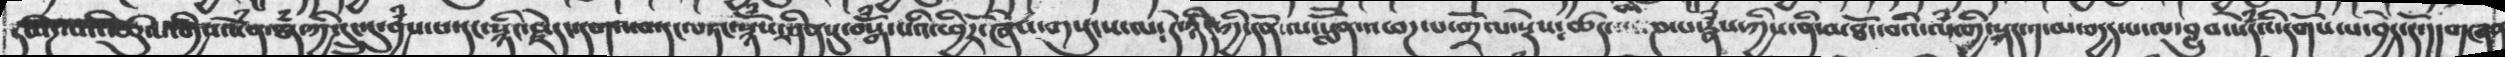དམིཌ་པའི་ཚུལ་གྱིས་སེཾན་རྣཾ་ཀྱི་དྲུང་དུ་བྱཾས་པ་དང་སྙིང་རྗེད་དགའ་བ་དང་བཏང་སྙོཾཔར་ཤིན་ཏུ་བསྒོཾ་པའི་ཕྱིར་ཞེས་གསུངས་ལ༴དེ་ཉིད་ཀྱི་དོན་ལ་སློོན་པཕཌ་པ་གྲོལ་སྡེས༴ཚད  ཎ་པ་རྣཾས་ཀྱིས་ནི་མཐོང་བའི་ལཾ་གྱི་སྐད་༡་མ་བདྱད་པ་ལ་བྱུབ་སེཾདའི་དགོས་པ་བྱེད་དོ་།།  གཞན
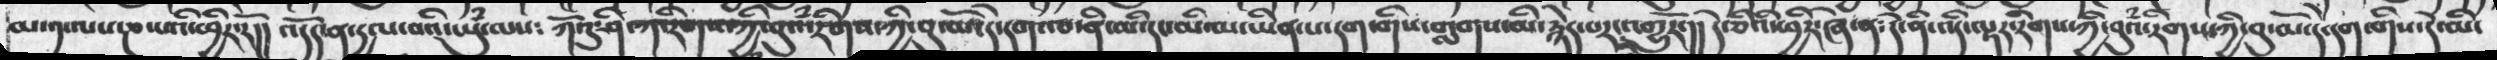མ་༡་ལས་ཎ་པའི་ཕྱིར་རོ།།  འདོད་ན་དྱལ་བའི་ཡུཾ་ལས༴  ཀོའུ་ཤི་ཀ་རིགས་ཀྱི་བུ་མོ་དེ་དག་ཁ་༡་ནི་མི་དང་མི་མ་ཡིན་པ་དག་གི་གླགས་མི་རྙེད་པར་འགྱུར་།།  དེ་ཅིའི་ཕྱིར་ཞེ་ན༴དེ་ནི་འདི་ལྟར་རིགས་ཀྱི་བུའཾ་རིགས་ཀྱི་བུ་མོ་དེ་དག་གིས་དེ་མི་
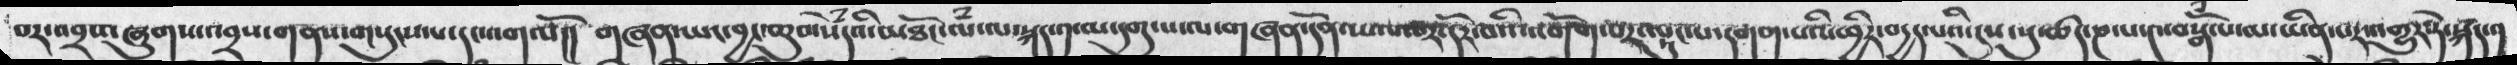བར་འགྲས་ཞུགས་འབྲས་གནས་གསུངས་པ་དང་འགལ།།  གཞན་ཡང་བྱང་ཆུབ་སེྃདའི་མཏོང་ལྃ་ལ་སྐད་༡་མ་དགུ་པ་ལ་གཞན་དོན་སལ་བར་དོར་པའི་བདོག་པར་ལྟུང་པ་དགག་པའི་ཕྱིར་བདྱད་པའི་དུས་སུ་ཚད་ཎ་པ་༤་བསྒོྃལ་མ་ཡིན་པར་འགྱུར་ཏེ་སྐད་༡
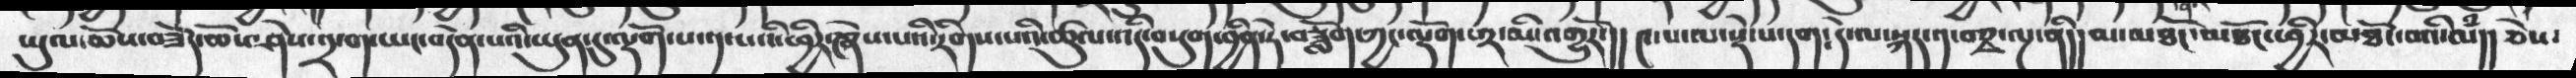ཡུལ་མོས་བཟོད་ཆེ་བཤེས་༢་ག་ཡང་བདེན་པའི་ཡུན་དུ་ལྡོག་པ་༡་པའི་ཕྱིར་ཞེས་པའི་རིགས་པའི་ཚུལ་འདི་བསུག་བྱིན་ཏེ་བཟློག་ཀྱང་ལྡོག་༢་མི་འགྱུརོ་།།  ༤་པ་ལ་སྡེ་པ་དག༴ དེ་ལ་སྐད་༡་བཅྭ་ལྔ་ནི།། མ་མཐོང་མཐོང་ཕྱིར་མཐོང་བའི་ལཾ།།  ཅེས་
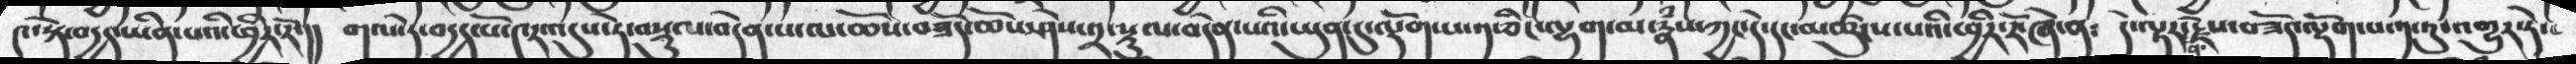༤་སྟེ་བདྱད་ཡིན་པའི་ཕྱིར་རོ་།།  གལ་ཏེ་བདྱད་པོ་༤ར་འདུས་ཏེ་བསྡུལ་བདེན་པ་ལ་ཆོས་བཟོད་ཆོས་ཤེས་༢་སྡུལ་བདེན་པའི་ཡུན་དུ་ལྡོག་པ་༡་ཅིང་ལྷག་མ་རྣཾས་ཀྱང་དེ་དང་མཚུངས་པའི་ཕྱིར་རོ་ཞེ་ན༴   དེ་ལྟར་ན་རྗེས་བཟོད་ལྡོག་པ་༡་ཏུ་འགྱུར་ཏེ་
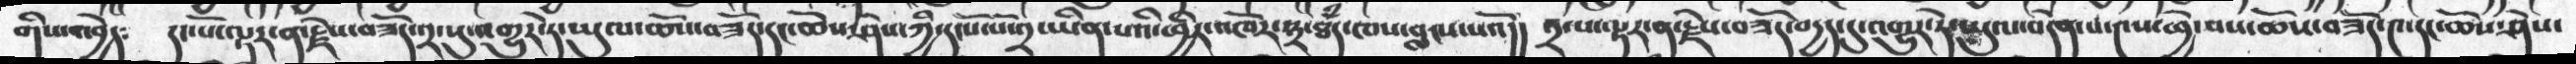གིས་འབྱེད༴  དང་པོ་ལྟར་ན་རྗེས་བཟོད་༢་སུ་འགྱུར་དེ་ཡུལ་ཆོས་བཟོད་དང་ཆོས་ཤེས་ཀྱི་དངོས་པོ་༢་ཡིན་པའི་ཕྱོར་འཁོར་༣་ཐཾད་ཁས་བླངས་པའོ།།  ༢་པ་ལྟར་ན་རྗེས་བཟོད་བདྱད་དུ་འགྱུར་ཏེ་ཡུལ་བདེན་པ་༤ས་ཕྱེ་པས་ཆོས་བཟོད་༤་དང་ཆོས་ཤེས་
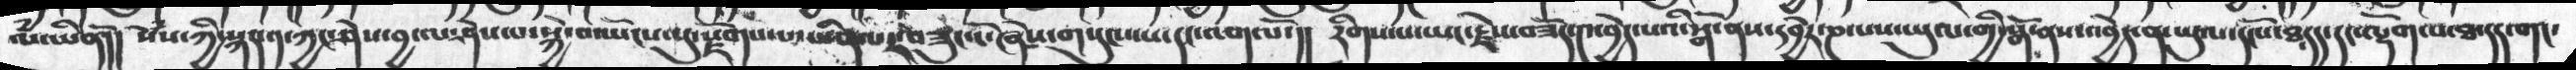ལཾ་ཡིནོ།། སེཾས་ཀྱི་སྐད་༡་ཀྱང་ཤེས་བྱ་ལ་ཤེས་པ་སྐྱེ་བ་ཡོངས་སུ་རྫོགས་པ་ཡིན་པར་བཟུང་ངོ་ཞེས་གསུངས་པ་དང་འགལ་ལོ་།།  རིགས་པ་ཡང་རྗེས་བཟོད་༤་བྱེད་པའི་སྒོ་ནས་དབྱེར་ཎ་པས་ཡུལ་གྱི་སྒོ་ནས་འབྱེད་ན་ཡུལ་དངོས་ཐདད་དང་ལྡོག་པ་ཐ་དད་གང་
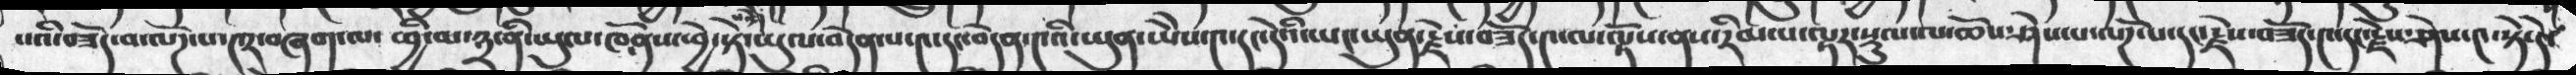པའི་བཟོད་པ་ལོཌ་པ་༤ར་བཞག་ལ་ ཕྱི་མ་༣་ནི་ཡུལ་ཁོ་ནས་ཕྱེ་སྟེ་ཡུལ་བདེན་པ་༤་དང་བདེན་པ་༤འི་ཡུན་ཡེེས་༤་དང་དེའི་ཡང་ཡུན་རྗེས་བཟོད་༤་ལ་ལྟོས་ནས་རིམ་པ་ལྟར་སྡུལ་ལ་ཆོས་ཤེས་པ་ལོཌ་པ་དང་རྗེས་བཟོད་༤་དང་རྗེས་ཤེས་༤་སྟེ་དེ་
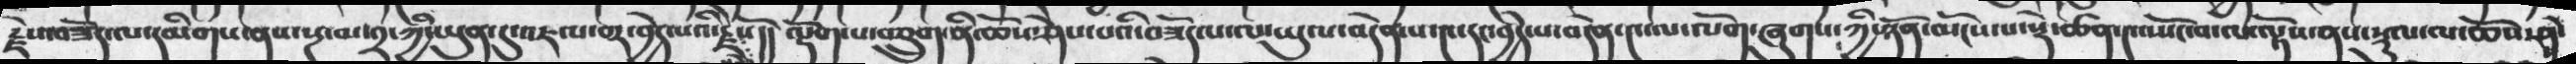རྗེས་བཟོད་ལ་དམིགས་ནས་སྔ་མ་༢་ཀྱི་ཡུན་དུ་འཇལ་བར་བྱེད་པའི་རྗེསོ།།  ལྡོག་པ་བཅྲུག་ནི་ཆོས་ཤེས་པའི་བཟོད་པ་ལ་ཡུལ་བདེན་པ་༤་དང་བྱེད་པ་བདེན་༤་ལ་ལོག་ཞུགས་ཀྱི་ཉོན་མོངས་་པ་སྡེ་ཚན་༤་སྤོང་བ་ལ་ལྟོས་ན་སྡུལ་ལ་ཆོས་ཤེས་
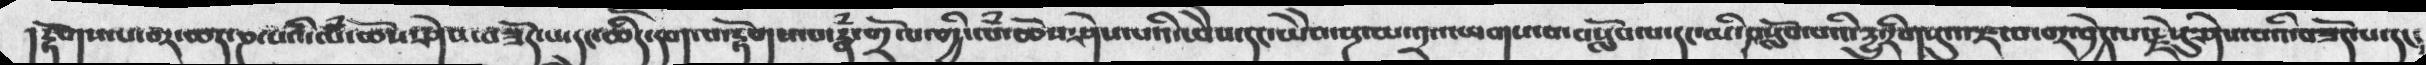།རྟོགས་པ་བར་ཆད་ཎ་པའི་ལཾ་ཆོས་ཤེས་བཟོད་པ་དང་ཆིད་དག་པ་རྟོགས་པ་རྣཾ་གྲོལ་གྱི་ལཾ་ཆོས་ཤེས་པའི་ཡེེས་དང་ཡེེས་སྔ་མ་༢་འཕགས་པ་བསློབ་པ་དང་མི་བསློབ་པའི་དྱུ་རིགསུ་འཇལ་བར་བྱེད་པ་རྗེསུ་ཤེས་པའི་བཟོད་པ་དང༴
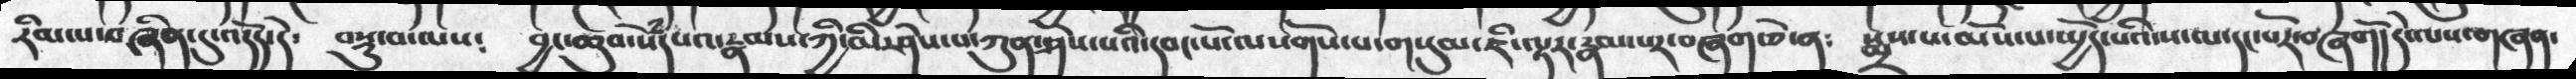རིམ་པ་བཞིན་དུ་འདོད་དེ་  བསྡུ་བ་ལས༴  བྱང་ཆུབ་སེཾདཔའ་རྣམས་ཀྱི་མི་ཤེས་པ་ཀུན་ཤེས་པའི་དབང་པོ་ལསོགས་པ་གསུམ་ཇི་ལྟར་རྣམ་པར་བཞག་ཅེ་ན༴  སྨྲས་པ་མོས་པ་སྤྱོད་པའི་ས་ལ་དང་པོར་བཞགོ།དེ་ལས་གཞན་
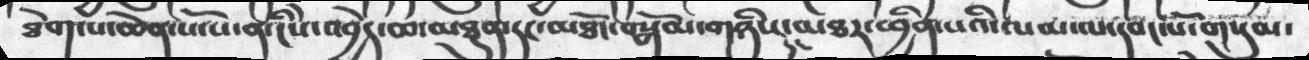ཐེག་པ་ཆེན་པ་པོ་ནི་ངེས་འབྱེད་ཆ་མཐུན་དང་མཐོང་བསྒོམ་གཉིས་དང་མཐར་ཕྱིན་པའི་ལམ་ལ་དབང་པོ་གསུམ་
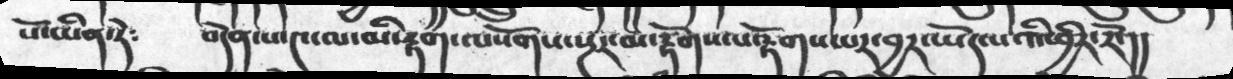པོ་ཡིན་ཏེ༴  བདེན་པ་༤་ལ་མི་རྟག་ལསོགས་སྔར་མ་རྟོགས་པ་རྟོགས་པར་བྱར་ཡོད་པའི་ཕྱིར་རོ་།།
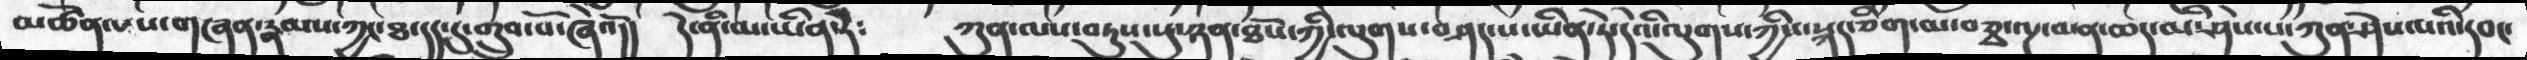མཚོན་པས་གཞན་རྣམས་ཀྱང་ཐ་དད་དུ་གྲུབ་བོ་ཞེའོ།།  དེ་ནི་མ་ཡིན་ཏེ༴   ཀུན་ལས་བཏུས་སུ་ཉན་ཐོས་ཀྱི་ལུགས་བཤད་པ་ཡིན་ཏེ་དེའི་ལུགས་ཀྱིས་སྐད་ཅིག་མ་བཅྭ་ལྔ་མན་ཆད་མི་ཤེས་པ་ཀུན་ཤེས་པའི་དབང་
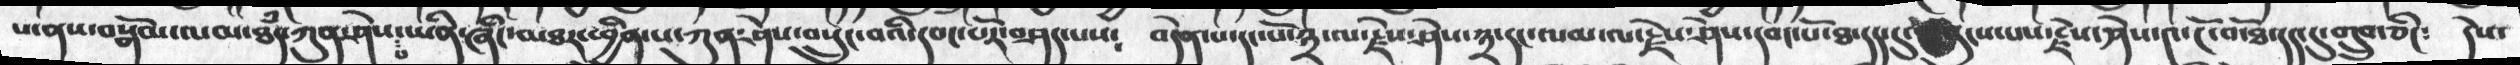པ་ནས་བསྒོམ་ལམ་ཐཾད་ཀུན་ཤེས་པ་ཡིན་ཞིང་མཐར་ཕྱིན་པ་ཀུན་ཤེས་བསྲུང་བའི་དབང་པོར་བཤད་པས༴   བདེན་པ་དང་པོ་༣་ལ་རྗེས་༣་དང་ལམ་ལ་རྗེས་ཤེས་དབང་པོ་ཐ་དད་དུ་གསུངས་པས་རྗེས་ཤེས་༤་ངོ་བོ་ཐ་དད་དུ་གྲུབ་ཅིང༴  དེས་
